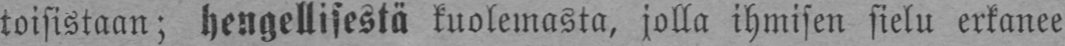toisistaan; hengellisestä kuolemasta, jolla ihmisen sielu erkanee
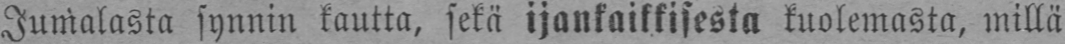Jumalasta synnin kautta, sekä ijankaikkisesta kuolemasta, millä
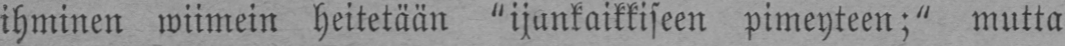ihminen wiimein heitetään "ijankaikkiseen pimeyteen;" mutta
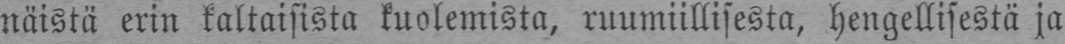näistä erin kaltaisista kuolemista, ruumiillisesta, hengellisestä ja
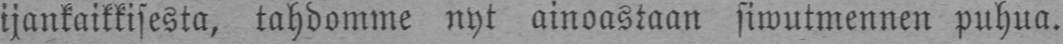ijankaikkisesta, tahdomme nyt ainoastaan siwutmennen puhua.
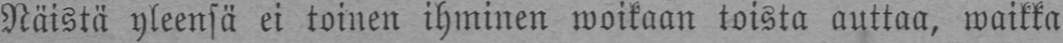Näistä yleensä ei toinen ihminen woikaan toista auttaa, waikka
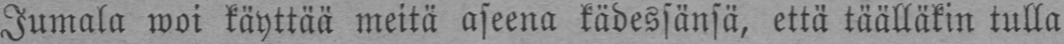Jumala woi käyttää meitä aseena kädessänsä, että täälläkin tulla
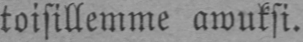toisillemme awuksi.
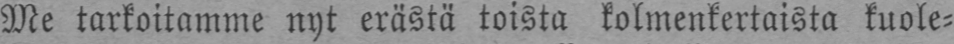Me tarkoitamme nyt erästä toista kolmenkertaista kuole-
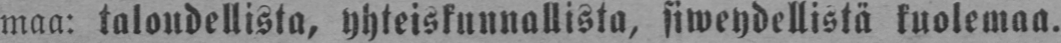maa: taloudellista, yhteiskunnallista, siweydellistä kuolemaa.
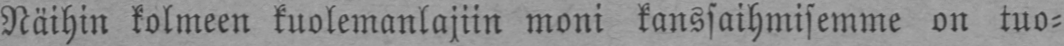Näihin kolmeen kuolemanlajiin moni kanssaihmisemme on tuo-
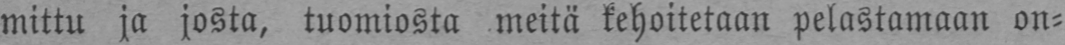mittu ja josta, tuomiosta meitä kehoitetaan pelastamaan on-
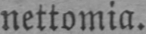nettomia.
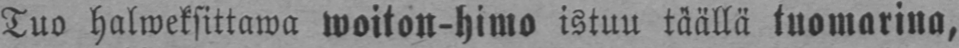Tuo halweksittawa woiton-himo istuu täällä tuomarina,
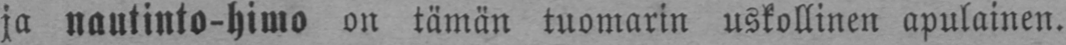ja nautinto-himo on tämän tuomarin uskollinen apulainen.
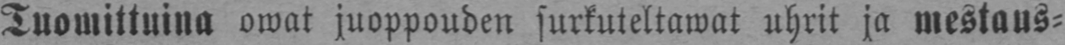Tuomittuina owat juoppouden surkuteltawat uhrit ja mestaus-
